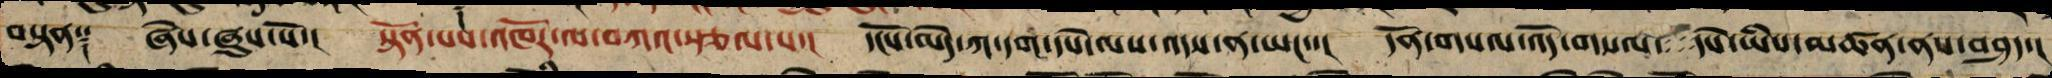བསྟན༑ ཞེས་ཞུས་སོ་། སྟོན་པས་འཁོར་ལ་བཀའ་སྩལ་པ་། དངོས་མེད་ཀ་དག་དཔེ་ལས་འདས་ན་ཡང་་། དོན་གསལ་འོད་གསལ་དཔེ་ཡིས་མཚོན་ནས་བཤད་།
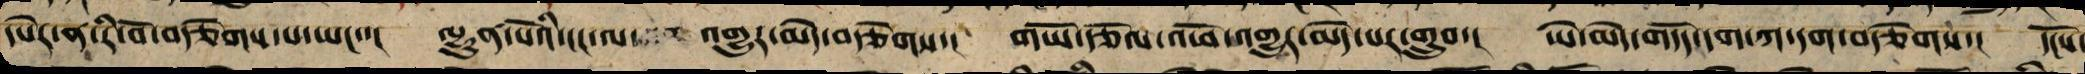དཔེར་ན་རི་བོ་བརྩེགས་པ་ཡང་་། ལྷུན་པོའི་ངང་ལ་འགྱུར་མེད་བརྩེགས་། གཡོ་རྩོལ་འཕོ་འགྱུར་མེད་པར་གྲུབ་། ཡེ་མེད་གདོད་དག་ཀ་དག་བརྩེགས་། དངོས་
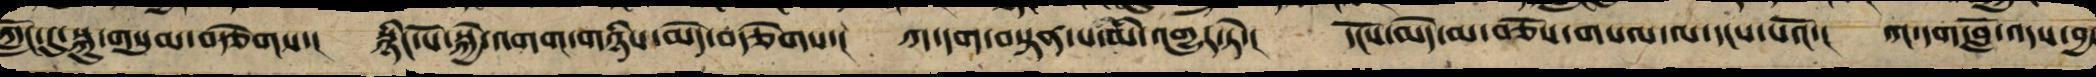ཀློང་དུ་སྐུ་གསུམ་བརྩེགས་། སྙིང་པོ་སྐྱེ་འགག་གཉིས་མེད་བརྩེགས་། ཀ་དག་བསྟན་པ་མི་འགྱུར་ཏེ་། དངོས་མེད་མ་བཅོས་གསལ་ལ་དངས་པའོ་། ཀ་དག་བློ་འདས་བྱ
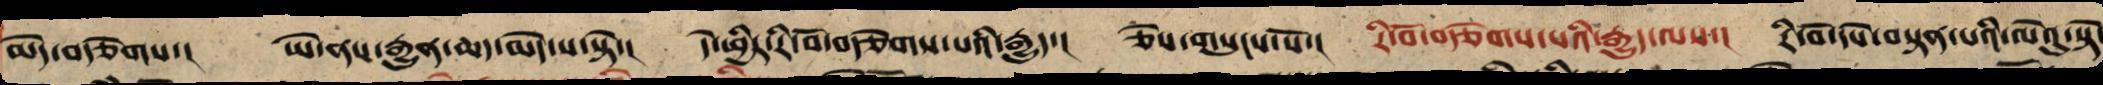མེད་བརྩེགས་། ཡེ་ནས་རྒྱུན་ཆད་མེད་པ་སྟེ་། དེ་ཕྱིར་རི་བོ་བརྩེགས་པའི་རྒྱུད་། ཅེས་གསུངས་སོ་། རི་བོ་བརྩེགས་པའི་རྒྱུད་ལས་། རི་བོ་དཔེར་བསྟན་པའི་ལེའུ་སྟེ་
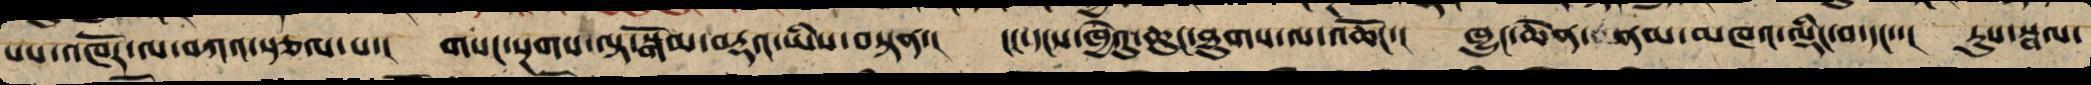པས་འཁོར་ལ་བཀའ་སྩལ་པ་། གསང་སྔགས་ལྟ་སྒོམ་བརྡའ་ཡིས་བསྟན་། ངང་དངས་ཁྱེའུ་ཆུང་ཐུགས་ལ་འཆོང་། ཁྱུང་ཆེན་ནམ་མཁར་ལྡིང་བ་དང་་། རུས་སྦལ་
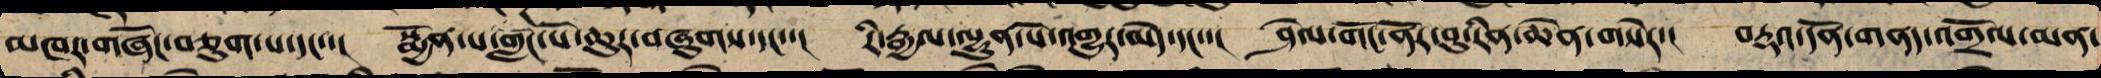མཁར་གཞོང་བཅུག་པ་དང་་། སྨྱོན་པ་གླང་པོ་ཆུར་བཞུགས་དང་་། རི་རྒྱལ་ལྷུན་པོ་འགྱུར་མེད་དང་་། ཤེལ་གོང་ནོར་བུ་རིན་ཆེན་གསེར་། བརྡའ་དོན་གནད་འགྲོལ་མན་
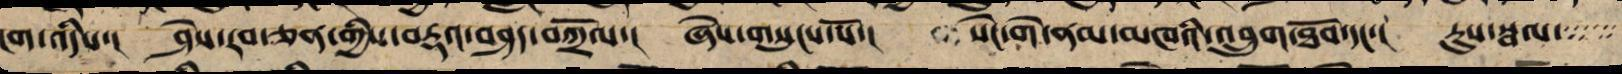ངག་འདིས་། ཤེས་རབ་ཅན་གྱིས་བརྡའ་གནད་བཀྲོལ་། ཞེས་གསུངས་སོ་། སེང་གེ་ནམ་མཁའི་འབྲུག་ཐོས་དང་། རུས་སྦལ་
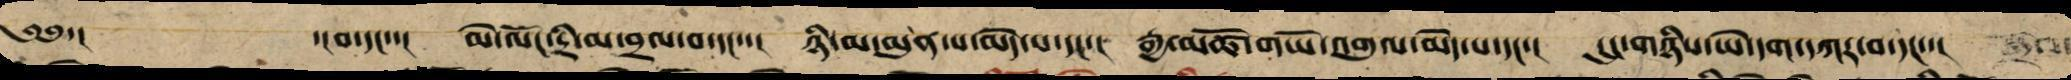༄༅་། ་།བ་དང་་། མེ་ལོང་དྲི་མ་བྲལ་བ་དང་་། ཉི་མ་མུན་པ་མེད་པ་དང་་། རྒྱ་མཚོ་གཡོ་འགུལ་མེད་པ་དང་། དུང་ཉིད་ཡེ་དག་དཀར་བ་དང་་།
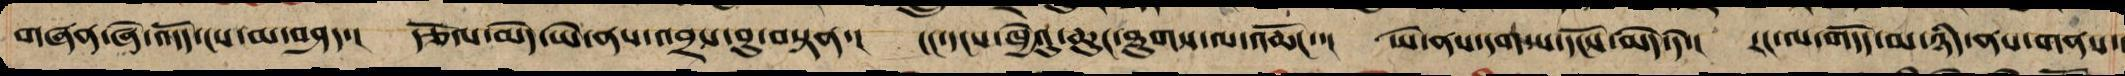གཞན་ཞེ་འདོད་ངས་མ་བཤད་། རྩོལ་མེད་ཡེ་ནས་འབྲས་བུ་བསྟན་། །ང་དངས་ཁྱེའུ་ཆུང་ཐུགས་ལ་འཆོང་། ཡེ་ནས་དག་པ་དངོས་མེད་དེ་། རང་ལ་གདོད་མ་ཉིད་ནས་གནས་།
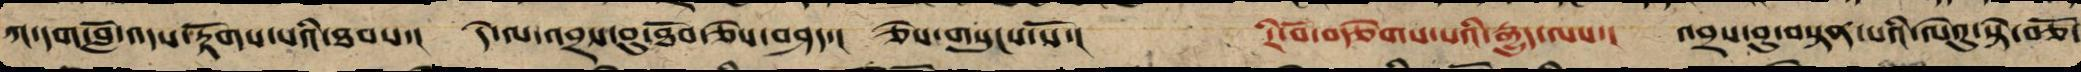ཀ་དག་བློ་འདས་རྟོགས་པའི་ཐབས་། དེ་ལ་འབྲས་བུ་ཐོབ་ཅེས་བཤད་། ཅེས་གསུངས་སོ་། རི་བོ་བརྩེགས་པའི་རྒྱུད་ལས་། འབྲས་བུ་བསྟན་པའི་ལེའུ་སྟེ་བཅོ་
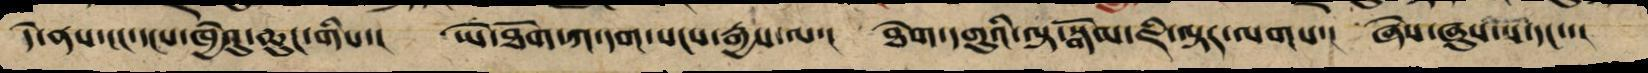དེ་ནས་ངང་དངས་ཁྱེའུ་ཆུང་གིས་། ཡེ་ཐོག་ཀ་དག་སངས་རྒྱས་ལ་། ཐེག་དགུའི་ལྟ་སྒོམ་ཇི་ལྟར་ལགས་། ཞེས་ཞུས་པ་དང་་།
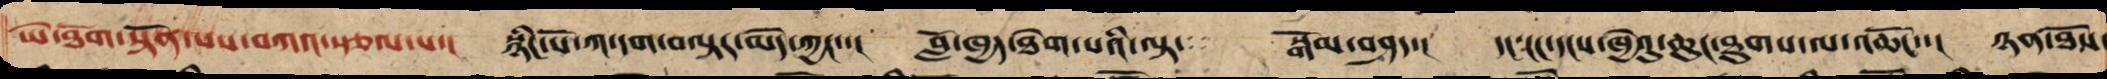ཡེ་ཐོག་སྟོན་པས་བཀའ་སྩལ་པ་། སྙིང་པོ་ཀ་དག་བལྟར་མེད་ཀྱང་་། བློ་ཁྱད་ཐེག་པའི་ལྟ་སྒོམ་བཤད་། ངང་དངས་ཁྱེའུ་ཆུང་ཐུགས་ལ་འཆོང་། ཉན་ཐོས་
